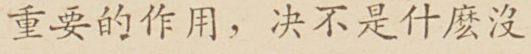重要的作用，決不是什麼沒
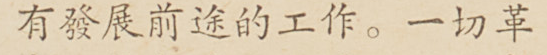有發展前途的工作。一切革
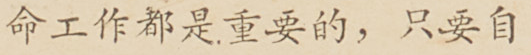命工作都是重要的，只要自
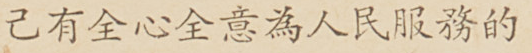己有全心全意為人民服務的
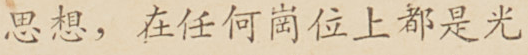思想，在任何崗位上都是光
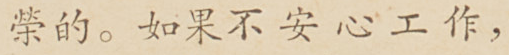榮的。如果不安心工作，
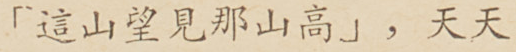「這山望見那山高」，天天
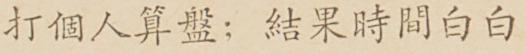打個人算盤；結果時間白白
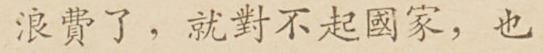浪費了，就對不起國家，也
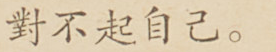對不起自己。
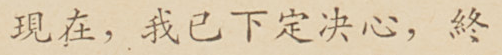現在，我已下定決心，終
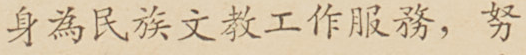身為民族文教工作服務，努
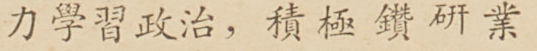力學習政治，積極鑽研業
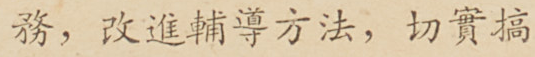務，改進輔導方法，切實搞
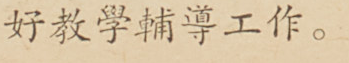好教學輔導工作。
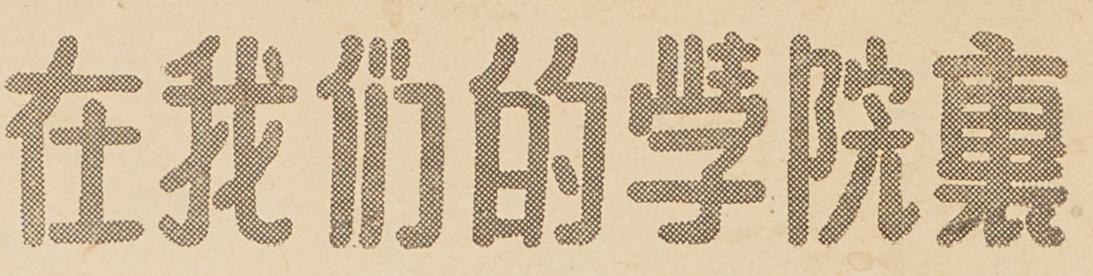在我们的學院裏
